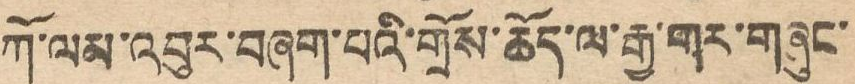ཀོ་ལམ་འབུར་བཞག་པའི་གྲོས་ཆོད་ལ་རྒྱ་གར་གཞུང་
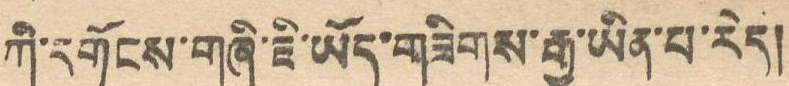ཀི་དགོངས་གཞི་ཇི་ཡོད་གཟིགས་རྒྱུ་ཡིན་པ་རེད།
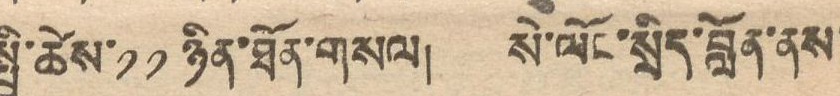སྤྱི་ཚེས་ ༡༡ ཉིན་ཐོན་གསལ། སེ་ལོང་སྲིད་བློན་ནས་
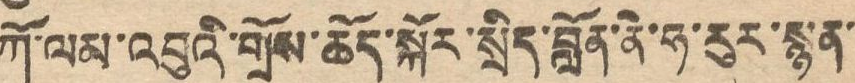ཀོ་ལམ་འབུའི་གྲོས་ཆོད་སྐོར་སྲིད་བློན་ནེ་ཧ་རུང་སྙན་
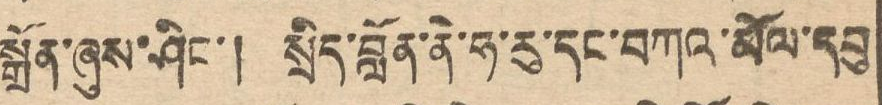སྒྲོན་ཞུས་ཤིང་། སྲིད་བློན་ནེ་ཧ་རུ་དང་བཀའ་མོལ་དབུ
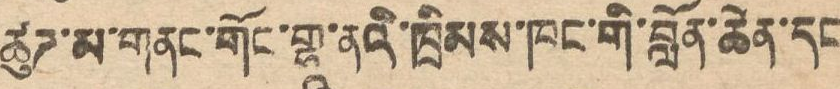ཚུཊ་མ་གནང་གོང་གྷཱ་ནའི་ཁྲིམས་ཁང་གི་བློན་ཆེན་དང
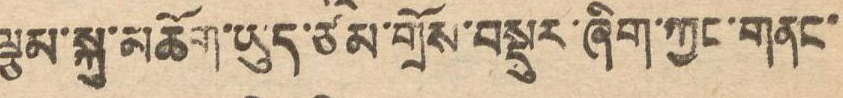ལྕམ་སྐུ་མཆོག་ཡུད་ཙམ་གྲོས་བསྡུར་ཞིག་ཀྱང་གནང་
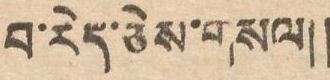བ་རེད་ཅེས་གསལ།།
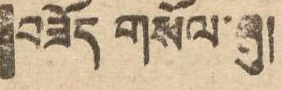བཟོད གསོལ་ཞུ།
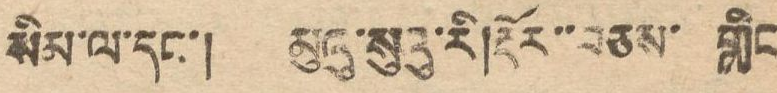སིམ་ལ་དང་། མུའུ་སུའུ་རི། རྡོར་བཅས་ གླིང
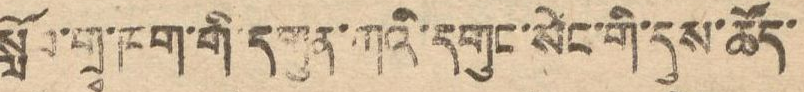སློབ་གྲྭ་ཁག་གི་དགུན་ཀའི་དགུང་སེང་གི་དུས་ཚོད་
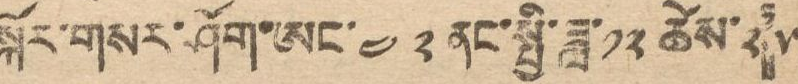སྐོར་གསར་ཤོག་ཨང་ ༤༢ ནང་སྤྱི་ཟླ་༡༢ ཚེས་ ༢༥
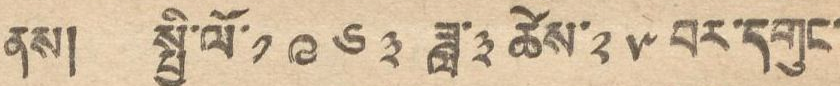ནས། སྤྱི་ལོ ༡༩༦༣ ཟླ་༣ ཚེས་ ༢༥ བར་དགུང་
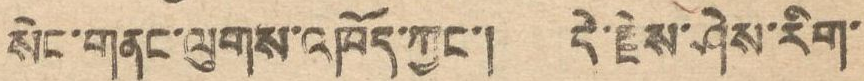སེང་གནང་ལུགས་འཁོད་ཀྱང་། དེ་རྗེས་ཤེས་རིག་
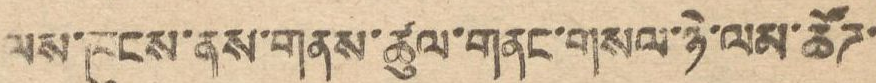ལས་ཁུངས་ནས་གནས་ཚུལ་གནང་གསལ་ཉེ་ལམ་ཚོཊ་
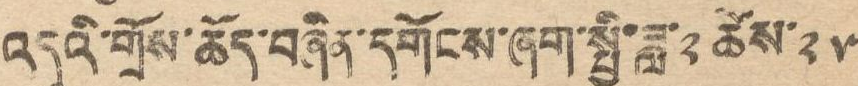འདུའི་གྲོས་ཆོད་བཞིན་དགེངས་ཞག་སྤྱི་ཟླ་༢ ཚེས་༢༥
